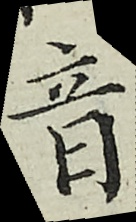音
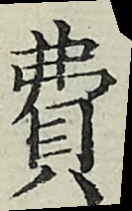費
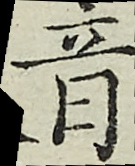音
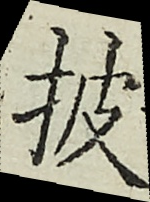披
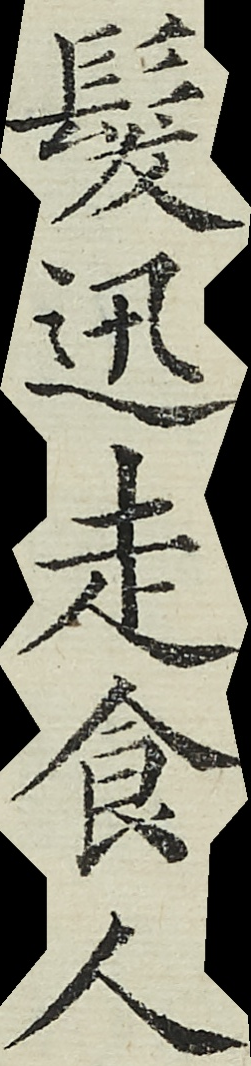發迅走食人
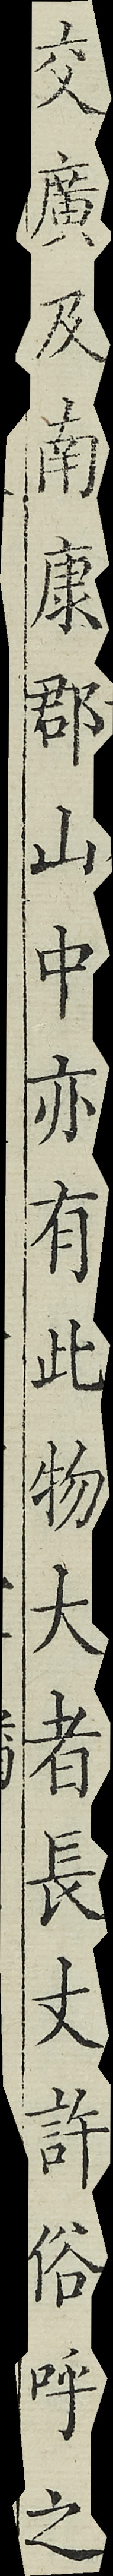交廣及南康郡山中亦有此物大者長丈許俗呼之
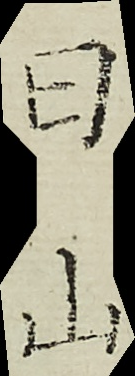曰山
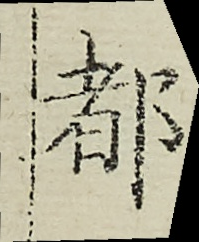都
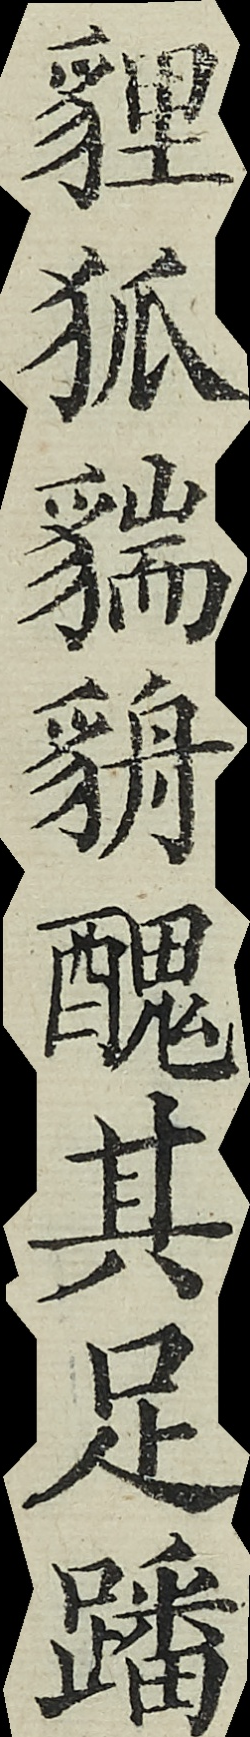貍狐貒貈醜其足蹯
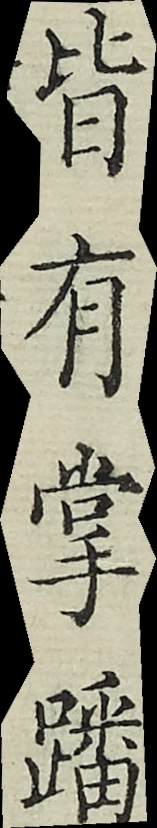皆有掌蹯
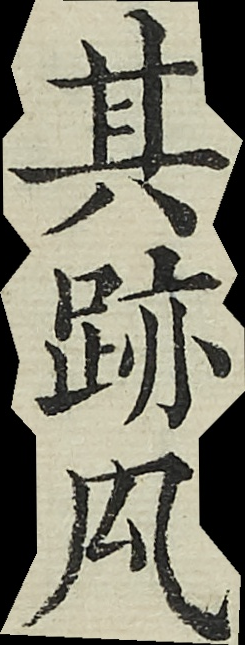其跡蹂
